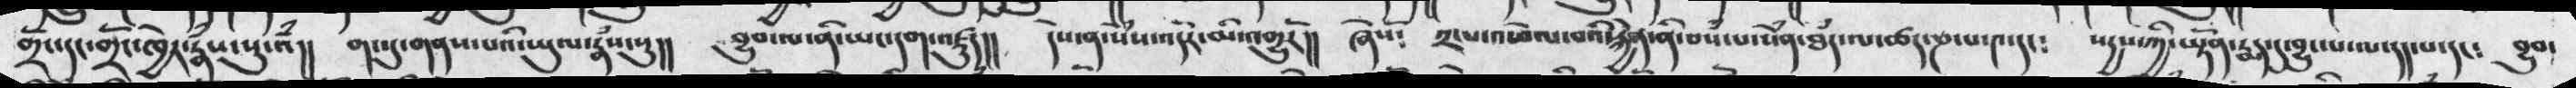གྲོང་དང་གྲོང་ཁྱེར་རྣཾས་སུ་འཾ།།   གང་དུ་གནས་པའི་ཡུལ་རྣཾས་སུ་།།   བྱུབ་ལ་ནི་ཡང་དག་འཛུད།།  དེས་ན་སེཾས་འདོར་མི་འགྱུརོ།།   ཞེསོ༴  ༢་པ་འཕེལ་བའི་རྐྱེན་ནི་བསཾ་པ་སེཾན་ཐཾད་ལ་ཚད་ཎ་པ་༤་དང༴   སརྒྱས་ཀྱི་ཡྟན་རྨད་དུ་བྱུང་པ་ལ་དད་པ་དང༴   བྱུང་
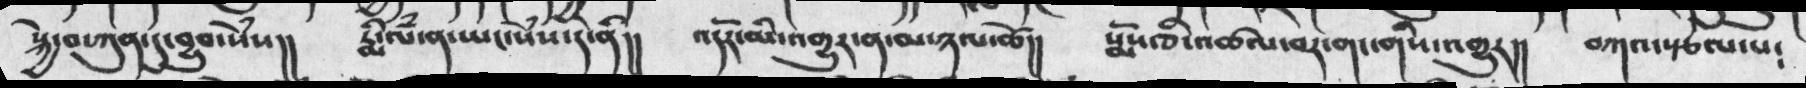སྐྱེ་བ་ཀུན་དུ་བྱུབ་སེསཾ།།    རྨི་ལཾ་ན་ཡང་སེཾས་དེ་ནི།།    འདོར་མི་འགྱུར་ན་མ་ཉལ་ཚེ།།    སྨོས་ཅི་འཚལ་བར་གང་གིས་འགྱུར།།    བཀའ་རྩལ་པ༴
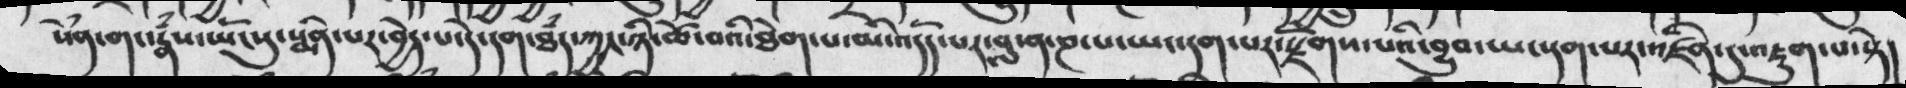སེཾན་གང་རྣཾས་ཡོངསུ་སྨིན་པར་བྱེད་པ་དེ་དག་ཐཾད་ཀྱང་ཉི་ཚེ་བའི་ཐེག་པ་མི་འདོད་པར་བླ་ན་ཎ་པ་ཡང་དག་པར་རྫོགས་པའི་བྱུབ་ཡང་དག་པར་འཛིན་དུ་འཇུག་པ་སྟེ།
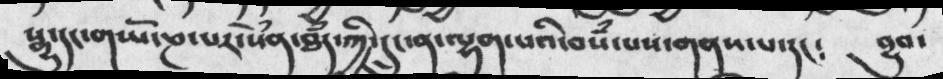སྒྱུ་དང་གཡོ་ཎ་པར་སེཾན་ཐཾད་ཀྱི་དྲུང་ན་ལྷན་པའི་བསཾ་པས་གནས་པ་དང༴     བྱུབ་
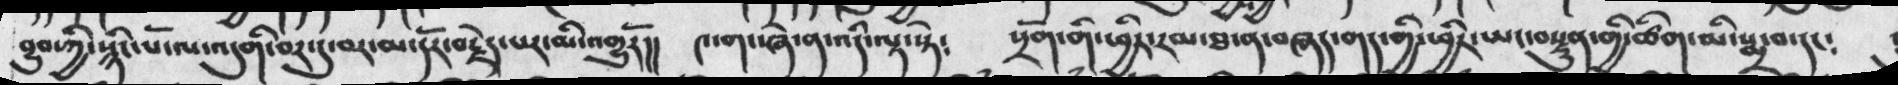བྱུབ་ཀྱི་སྙིང་པོ་ལ་འདུགི་བར་མ་དོར་བརྗེད་པར་མི་འགྱུརོ།།  ༤་གང་ཞེ་ན་འདི་ལྟ་སྟེ༴  སྲོག་གི་ཕྱིར་རམ་ཐ་ན་བཞད་གད་གྱི་ཕྱིར་ཡང་བསྟུན་གྱི་ཚིག་མི་སྨྲ་བ་དང༴
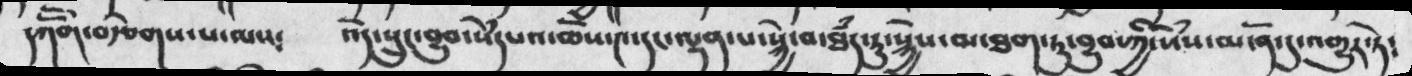དཀོོག་བརྩེགས་པ་ལས༴   འོད་སྲུང་བྱུབ་སེཾདཔའ་ཆོས་༤་དང་ལྡན་པ་སྐྱེ་བ་ཐཾད་ཏུ་སྐྱེས་མ་ཐག་ཏུ་བྱུབ་ཀྱི་སེཾས་མངོན་དུ་འགྱུར་ཏེ༴
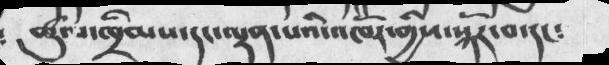ཚུལ་ཁྲིམས་དང་ལྡན་པའི་འཁོར་གྱིས་སྐོར་བ་དང༴
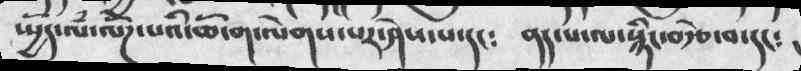ཡྱོད་ལཾ་ལེཌ་པའི་ཆོ་ག་ལེགས་པར་ཤེས་པ་དང༴   ནད་པ་ལ་སྙིང་བརྩེ་བ་དང༴
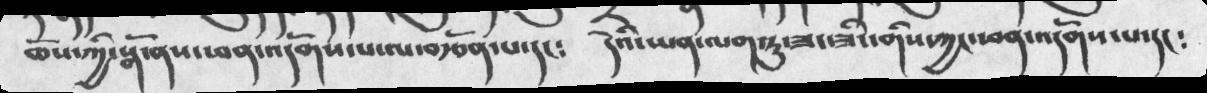ཆོས་ཀྱི་སྒོ་ནས་ཕན་འདོགས་པ་ལ་བརྩོན་པ་དང༴    དེའི་ཡན་ལག་ཏུ་ཟང་ཟིང་གིས་ཀྱང་ཕན་འདོགས་པ་དང༴
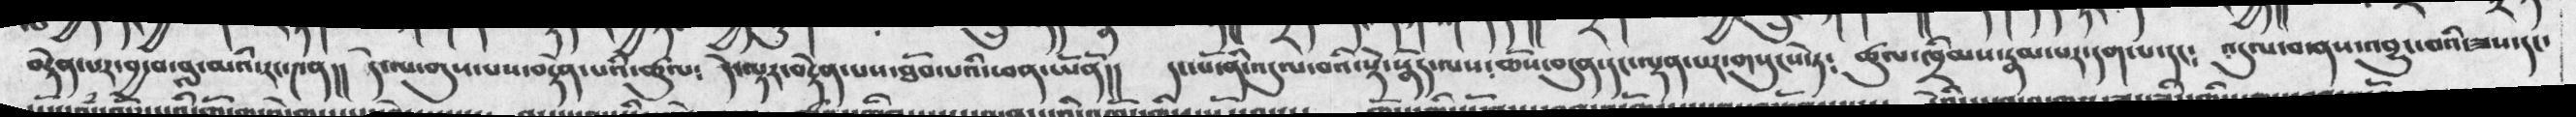བརྟེན་པར་བྱ་བ་བླ་མའི་རང་༤ན།།   དེ་ལ་གུས་པས་བརྟེན་པའི་ཚུལ༴    དེ་ལྟར་བརྟེན་པས་ཐོབ་པའི་ཕན་ཡོན།།   དང་པོ་ནི་འདུལ་བའི་སྡེ་སྣོད་ལས༴ ཆོས་བདུན་དང་ལྡན་པར་གསུངས་ཏེ༴   ཚུལ་ཁྲིམས་རྣམ་པར་དག་པ་དང༴  འདུལ་བ་ནས་འབྱུང་བའི་ཟས་དང་
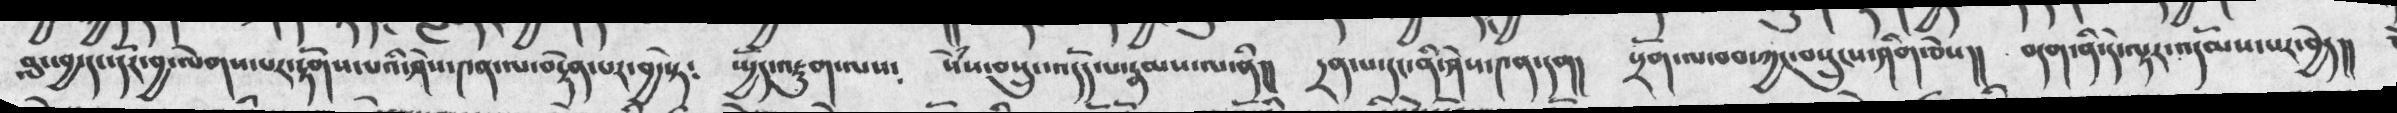བླང་བྱ་དང་དོར་བྱ་ལེགས་པར་རྟོགས་པའི་ཤེས་༤ན་ལ་བརྟེན་པར་སྟེ༴  ཡྱོད་འཇུག་ལས༴  སེཾས་བསྲུངས་འདོད་པ་རྣམས་ལ་ནི།།   དྲན་པ་དང་ནི་ཤེས་༤ན་དག།    སྲོག་ལ་བབ་ཀྱང་བསྲུུངས་ཤིག་ཅེས།།    བདག་ནི་དེ་ལྟར་འདོམས་པར་བྱེད།།
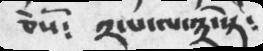ཅེསོ༴        ༢་པ་ལ་༣སྟེ༴
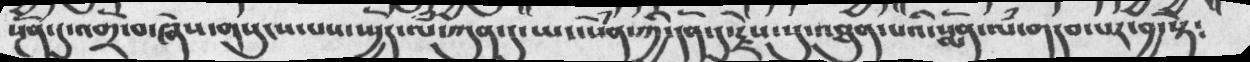སྔོན་དུ་འགྲོ་བ་ཞེས་གསུངས་པས་ཡྱོད་ལཾ་་ཀུན་དུ་ཡང་སེཾན་ཀྱི་དོན་དུ་རྗེས་སུ་འཐུན་པའི་སྨོན་ལཾ་གདབ་པར་བྱ་སྟེ༴
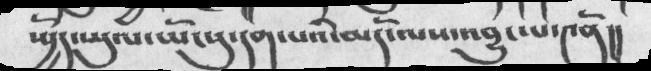ཡྱོད་ཡུལ་ཡོང་སུ་དག་པའི་མདོ་ལས་འབྱུང་པ་༤ནོ།།
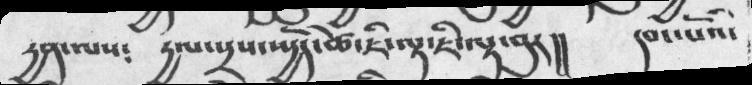རྒྱན་ལས༴   རྒྱལ་སྲས་ཡཡྱོད་ཚེ་ཇི་ལྟར་བུར།།   དབང་པོའི་
